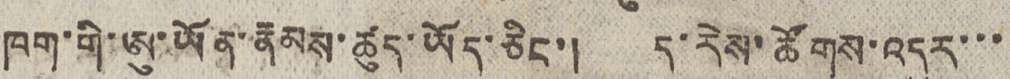ཁག་གི་ཨུ་ཡོན་རྣམས་ཚུད་ཡོད་ཅིང་། ད་རེས་ཚོགས་འདུར་་་
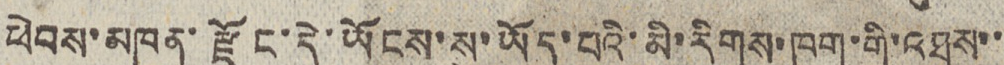ཕེབས་མཁན་རྫོང་དེ་ཡོངས་སུ་ཡོད་པའི་མི་རིགས་ཁག་གི་འཐུས་་
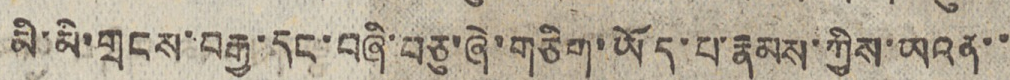མི་མི་གྲངས་བརྒྱ་དང་བཞི་བཅུ་ཞེ་གཅིག་ཡོད་པ་རྣམས་ཀྱིས་ཡའན་་
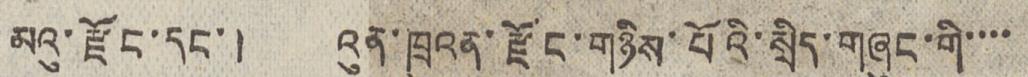མའུ་རྫོང་དང་། འུན་ཁྲུའན་རྫོང་གཉིས་པོའི་སྲིད་གཞུང་གི་་་་
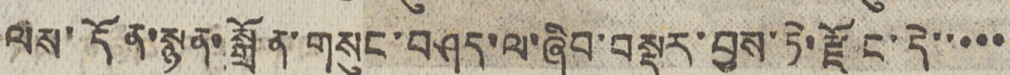ལས་དོན་སྙན་སྒྲོན་གསུང་བཤད་ལ་ཞིབ་བསྡུར་བྱས་ཏེ་རྫོང་དེ་་་་་
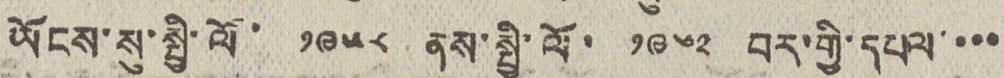ཡོངས་སུ་སྤྱི་ལོ་ ༡༩༥༨ ནས་སྤྱི་ལོ་ ༡༩༦༢ བར་གྱི་དཔལ་་་་
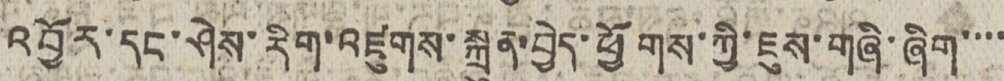འབྱོར་དང་ཤེས་རིག་འཛུགས་སྐྲུན་བྱེད་ཕྱོགས་ཀྱི་ཇུས་གཞི་ཞིག་་་་
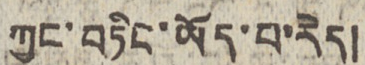ཀྱང་བཏིང་ཡོད་པ་རེད།
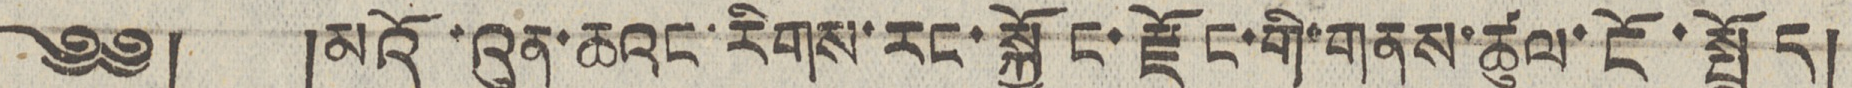༄༅། །མའོ་འུན་ཆའང་རིགས་རང་སྐྱོང་རྫོང་གི་གནས་ཚུལ་ངོ་སྤྲོད།
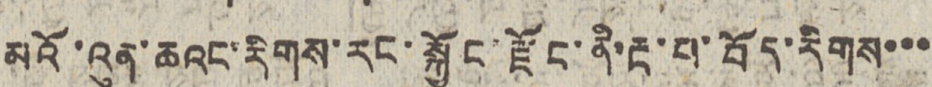མའོ་འུན་ཆའང་རིགས་རང་སྐྱོང་རྫོང་ནི་རྔ་བ་བོད་རིགས་་་
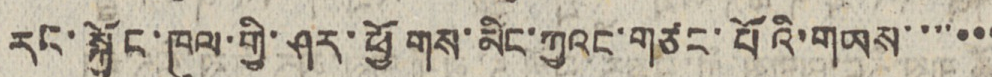རང་སྐྱོང་ཁུལ་གྱི་ཤར་ཕྱོགས་མིང་ཀྱའང་གཙང་པོའི་གཡས་་་་་་་
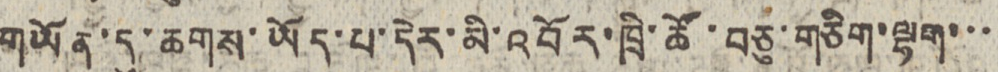གཡོན་དུ་ཆགས་ཡོད་པ་དེར་མི་འབོར་ཁྲི་ཚོ་བཅུ་གཅིག་ལྷག་་་
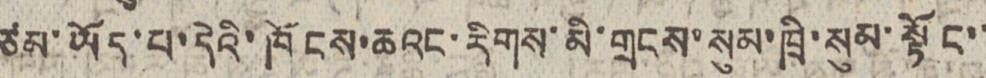ཙམ་ཡོད་པ་དེའི་ཁོངས་ཆའང་རིགས་མི་གྲངས་སུམ་ཁྲི་སུམ་སྟོང་་
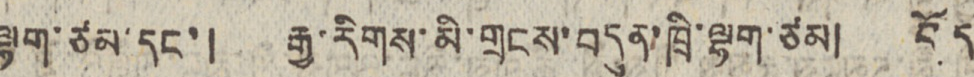ལྷག་ཙམ་དང་། རྒྱ་རིགས་མི་གྲངས་བདུན་ཁྲི་ལྷག་ཙམ། བོད་
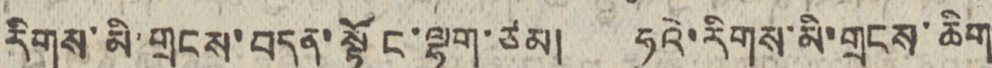རིགས་མི་གྲངས་བདུན་སྟོང་ལྷག་ཙམ། ཧུའེ་རིགས་མི་གྲངས་ཆིག་
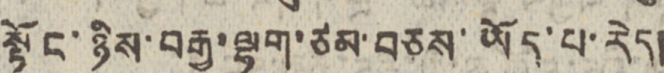སྟོང་ཉིས་བརྒྱ་ལྷག་ཙམ་བཅས་ཡོད་པ་རེད།
